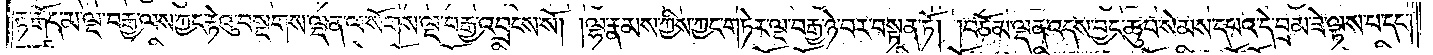རྟ་རྒོད་མ་ལྔ་བརྒྱ་ལས་ཀྱང་རྟེའུ་བསྔགས་ལྡན་ལ་སོགས་ལྔ་བརྒྱ་འབྲངས་སོ། །ལྷ་རྣམས་ཀྱིས་ཀྱང་གཏེར་ལྔ་བརྒྱ་ཉེ་བར་བསྟན་ཏོ། །བཅོམ་ལྡན་འདས་བྱང་ཆུབ་སེམས་དཔའ་དེ་བྲམ་ཟེ་ལྟས་པ་དང༌།
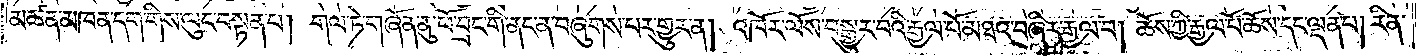མཚན་མཁན་དག་གིས་ལུང་བསྟན་པ། གལ་ཏེ་གཞོན་ནུ་ཕོ་བྲང་གི་ནང་ན་བཞུགས་པར་གྱུར་ན། འཁོར་ལོས་བསྒྱུར་བའི་རྒྱལ་པོ་མཐའ་བཞིར་རྒྱལ་བ། ཆོས་ཀྱི་རྒྱལ་པོ་ཆོས་དང་ལྡན་པ། རིན་
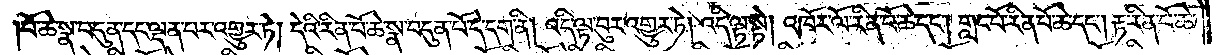པོ་ཆེ་སྣ་བདུན་དང་ལྡན་པར་འགྱུར་ཏེ། དེའི་རིན་པོ་ཆེ་སྣ་བདུན་པོ་དེ་དག་ནི། འདི་ལྟ་བུར་འགྱུར་ཏེ། འདི་ལྟ་སྟེ། འཁོར་ལོ་རིན་པོ་ཆེ་དང༌། གླང་པོ་རིན་པོ་ཆེ་དང༌། རྟ་རིན་པོ་ཆེ་
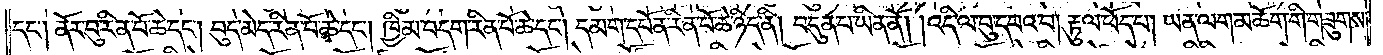དང༌། ནོར་བུ་རིན་པོ་ཆེ་དང༌། བུད་མེད་རིན་པོ་ཆེ་དང༌། ཁྱིམ་བདག་རིན་པོ་ཆེ་དང༌། དམག་དཔོན་རིན་པོ་ཆེ་ཉིད་ནི། བདུན་པ་ཡིན་ནོ། །འདི་ལ་བུ་དཔའ་བ། རྟུལ་ཕོད་པ། ཡན་ལག་མཆོག་གི་གཟུགས་
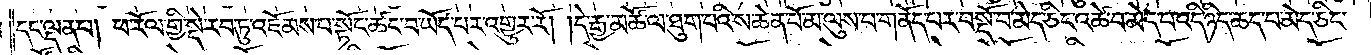དང་ལྡན་པ། ཕ་རོལ་གྱི་སྡེ་རབ་ཏུ་འཇོམས་པ་སྟོང་ཚང་བ་ཡོད་པར་འགྱུར་རོ། །དེ་རྒྱ་མཚོ་ལ་ཐུག་པའི་ས་ཆེན་པོ་མ་ལུས་པ་གནོད་པར་བསྔོ་བ་མེད་ཅིང་འཚེ་བ་མེད་པ་འདི་ཉིད་ཆད་པ་མེད་ཅིང་
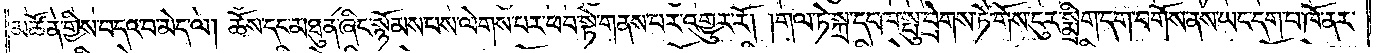མཚོན་གྱིས་བདའ་བ་མེད་ལ། ཆོས་དང་མཐུན་ཞིང་སྙོམས་བས་ལེགས་པར་ཕབ་སྟེ་གནས་པར་འགྱུར་རོ། །གལ་ཏེ་སྐྲ་དང་ཁ་སྤུ་བྲེགས་ཏེ་གོས་ངུར་སྨྲིག་དག་བགོས་ནས་ཡང་དག་པ་ཁོ་ནར་
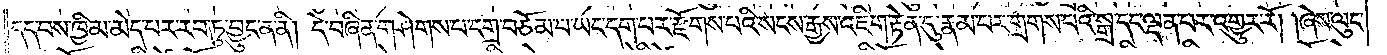དད་པས་ཁྱིམ་མེད་པར་རབ་ཏུ་བྱུང་ན་ནི། དེ་བཞིན་གཤེགས་པ་དགྲ་བཅོམ་པ་ཡང་དག་པར་རྫོགས་པའི་སངས་རྒྱས་འཇིག་རྟེན་དུ་རྣམ་པར་གྲགས་པའི་སྒྲ་དང་ལྡན་པར་འགྱུར་རོ། །ཞེས་ལུང་
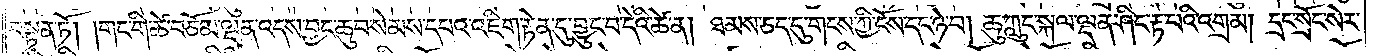བསྟན་ཏོ། །གང་གི་ཚེ་བཅོམ་ལྡན་འདས་བྱང་ཆུབ་སེམས་དཔའ་འཇིག་རྟེན་དུ་བྱུང་བ་དེའི་ཚེ་ན། ཐམས་ཅད་དུ་གངས་ཀྱི་ངོས་དང་ཉེ་བ། ཆུ་ཀླུང་སྐལ་ལྡན་ཤིང་རྟ་པའི་འགྲམ། དྲང་སྲོང་སེར་
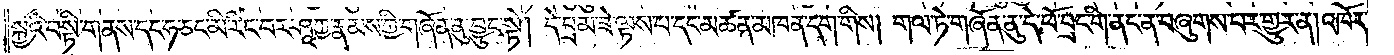སྐྱའི་བསྟི་གནས་དང་ཧ་ཅང་མི་རིང་བར་ཤཱཀྱ་རྣམས་ཀྱི་གཞོན་ནུ་བྱུང་སྟེ། དེ་བྲམ་ཟེ་ལྟས་པ་དང་མཚན་མཁན་དག་གིས། གལ་ཏེ་གཞོན་ནུ་དེ་ཕོ་བྲང་གི་ནང་ན་བཞུགས་པར་གྱུར་ན། འཁོར་
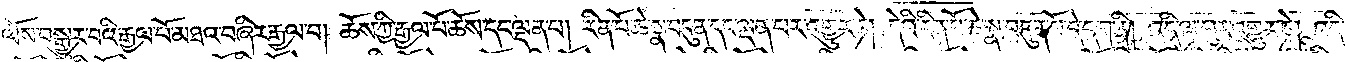ལོས་བསྒྱུར་བའི་རྒྱལ་པོ་མཐའ་བཞིར་རྒྱལ་བ། ཆོས་ཀྱི་རྒྱལ་པོ་ཆོས་དང་ལྡན་པ། རིན་པོ་ཆེ་སྣ་བདུན་དང་ལྡན་པར་འགྱུར་ཏེ། དེའི་རིན་པོ་ཆེ་སྣ་བདུན་པོ་དེ་དག་ནི། འདི་ལྟ་བུར་འགྱུར་ཏེ། འདི་ལྟ་སྟེ།
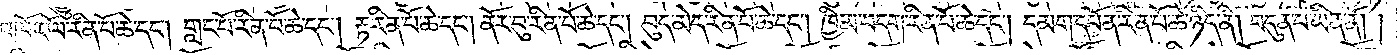འཁོར་ལོ་རིན་པོ་ཆེ་དང༌། གླང་པོ་རིན་པོ་ཆེ་དང༌། རྟ་རིན་པོ་ཆེ་དང༌། ནོར་བུ་རིན་པོ་ཆེ་དང༌། བུད་མེད་རིན་པོ་ཆེ་དང༌། ཁྱིམ་བདག་རིན་པོ་ཆེ་དང༌། དམག་དཔོན་རིན་པོ་ཆེ་ཉིད་ནི། བདུན་པ་ཡིན་ནོ། །
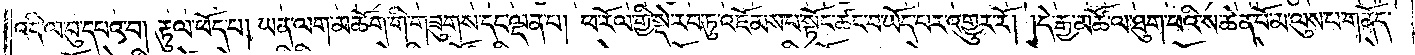འདི་ལ་བུ་དཔའ་བ། རྟུལ་ཕོད་པ། ཡན་ལག་མཆོག་གི་གཟུགས་དང་ལྡན་པ། ཕ་རོལ་གྱི་སྡེ་རབ་ཏུ་འཇོམས་པ་སྟོང་ཚང་བ་ཡོད་པར་འགྱུར་རོ། །དེ་རྒྱ་མཚོ་ལ་ཐུག་པའི་ས་ཆེན་པོ་མ་ལུས་པ་གནོད་
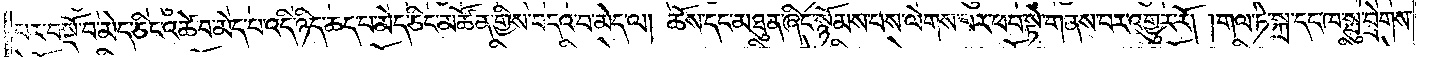པར་བསྔོ་བ་མེད་ཅིང་འཚེ་བ་མེད་པ་འདི་ཉིད་ཆད་པ་མེད་ཅིང་མཚོན་གྱིས་བདའ་བ་མེད་ལ། ཆོས་དང་མཐུན་ཞིང་སྙོམས་པས་ལེགས་པར་ཕབ་སྟེ་གནས་པར་འགྱུར་རོ། །གལ་ཏེ་སྐྲ་དང་ཁ་སྤུ་བྲེགས་
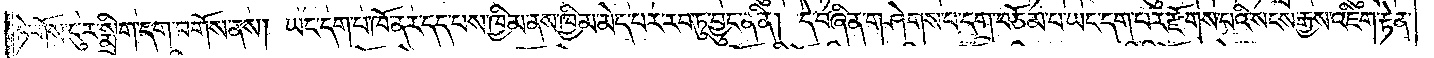ཏེ་གོས་ངུར་སྨྲིག་དག་བགོས་ནས། ཡང་དག་པ་ཁོ་ནར་དད་པས་ཁྱིམ་ནས་ཁྱིམ་མེད་པར་རབ་ཏུ་བྱུང་ན་ནི། དེ་བཞིན་གཤེགས་པ་དགྲ་བཅོམ་པ་ཡང་དག་པར་རྫོགས་པའི་སངས་རྒྱས་འཇིག་རྟེན་
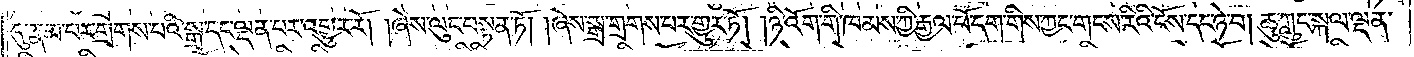དུ་རྣམ་པར་གྲགས་པའི་སྒྲ་དང་ལྡན་པར་འགྱུར་རོ། །ཞེས་ལུང་བསྟན་ཏོ། །ཞེས་སྒྲ་གྲགས་པར་གྱུར་ཏོ། །ཉི་འོག་གི་ཁམས་ཀྱི་རྒྱལ་པོ་དག་གིས་ཀྱང་གངས་རིའི་ངོས་དང་ཉེ་བ། ཆུ་ཀླུང་སྐལ་ལྡན་
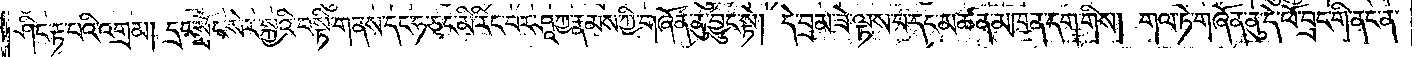ཤིང་རྟ་པའི་འགྲམ། དྲང་སྲོང་སེར་སྐྱའི་བསྟི་གནས་དང་ཧ་ཅང་མི་རིང་བར་ཤཱཀྱ་རྣམས་ཀྱི་གཞོན་ནུ་བྱུང་སྟེ། དེ་བྲམ་ཟེ་ལྟས་པ་དང་མཚན་མཁན་དག་གིས། གལ་ཏེ་གཞོན་ནུ་དེ་ཕོ་བྲང་གི་ནང་ན་
